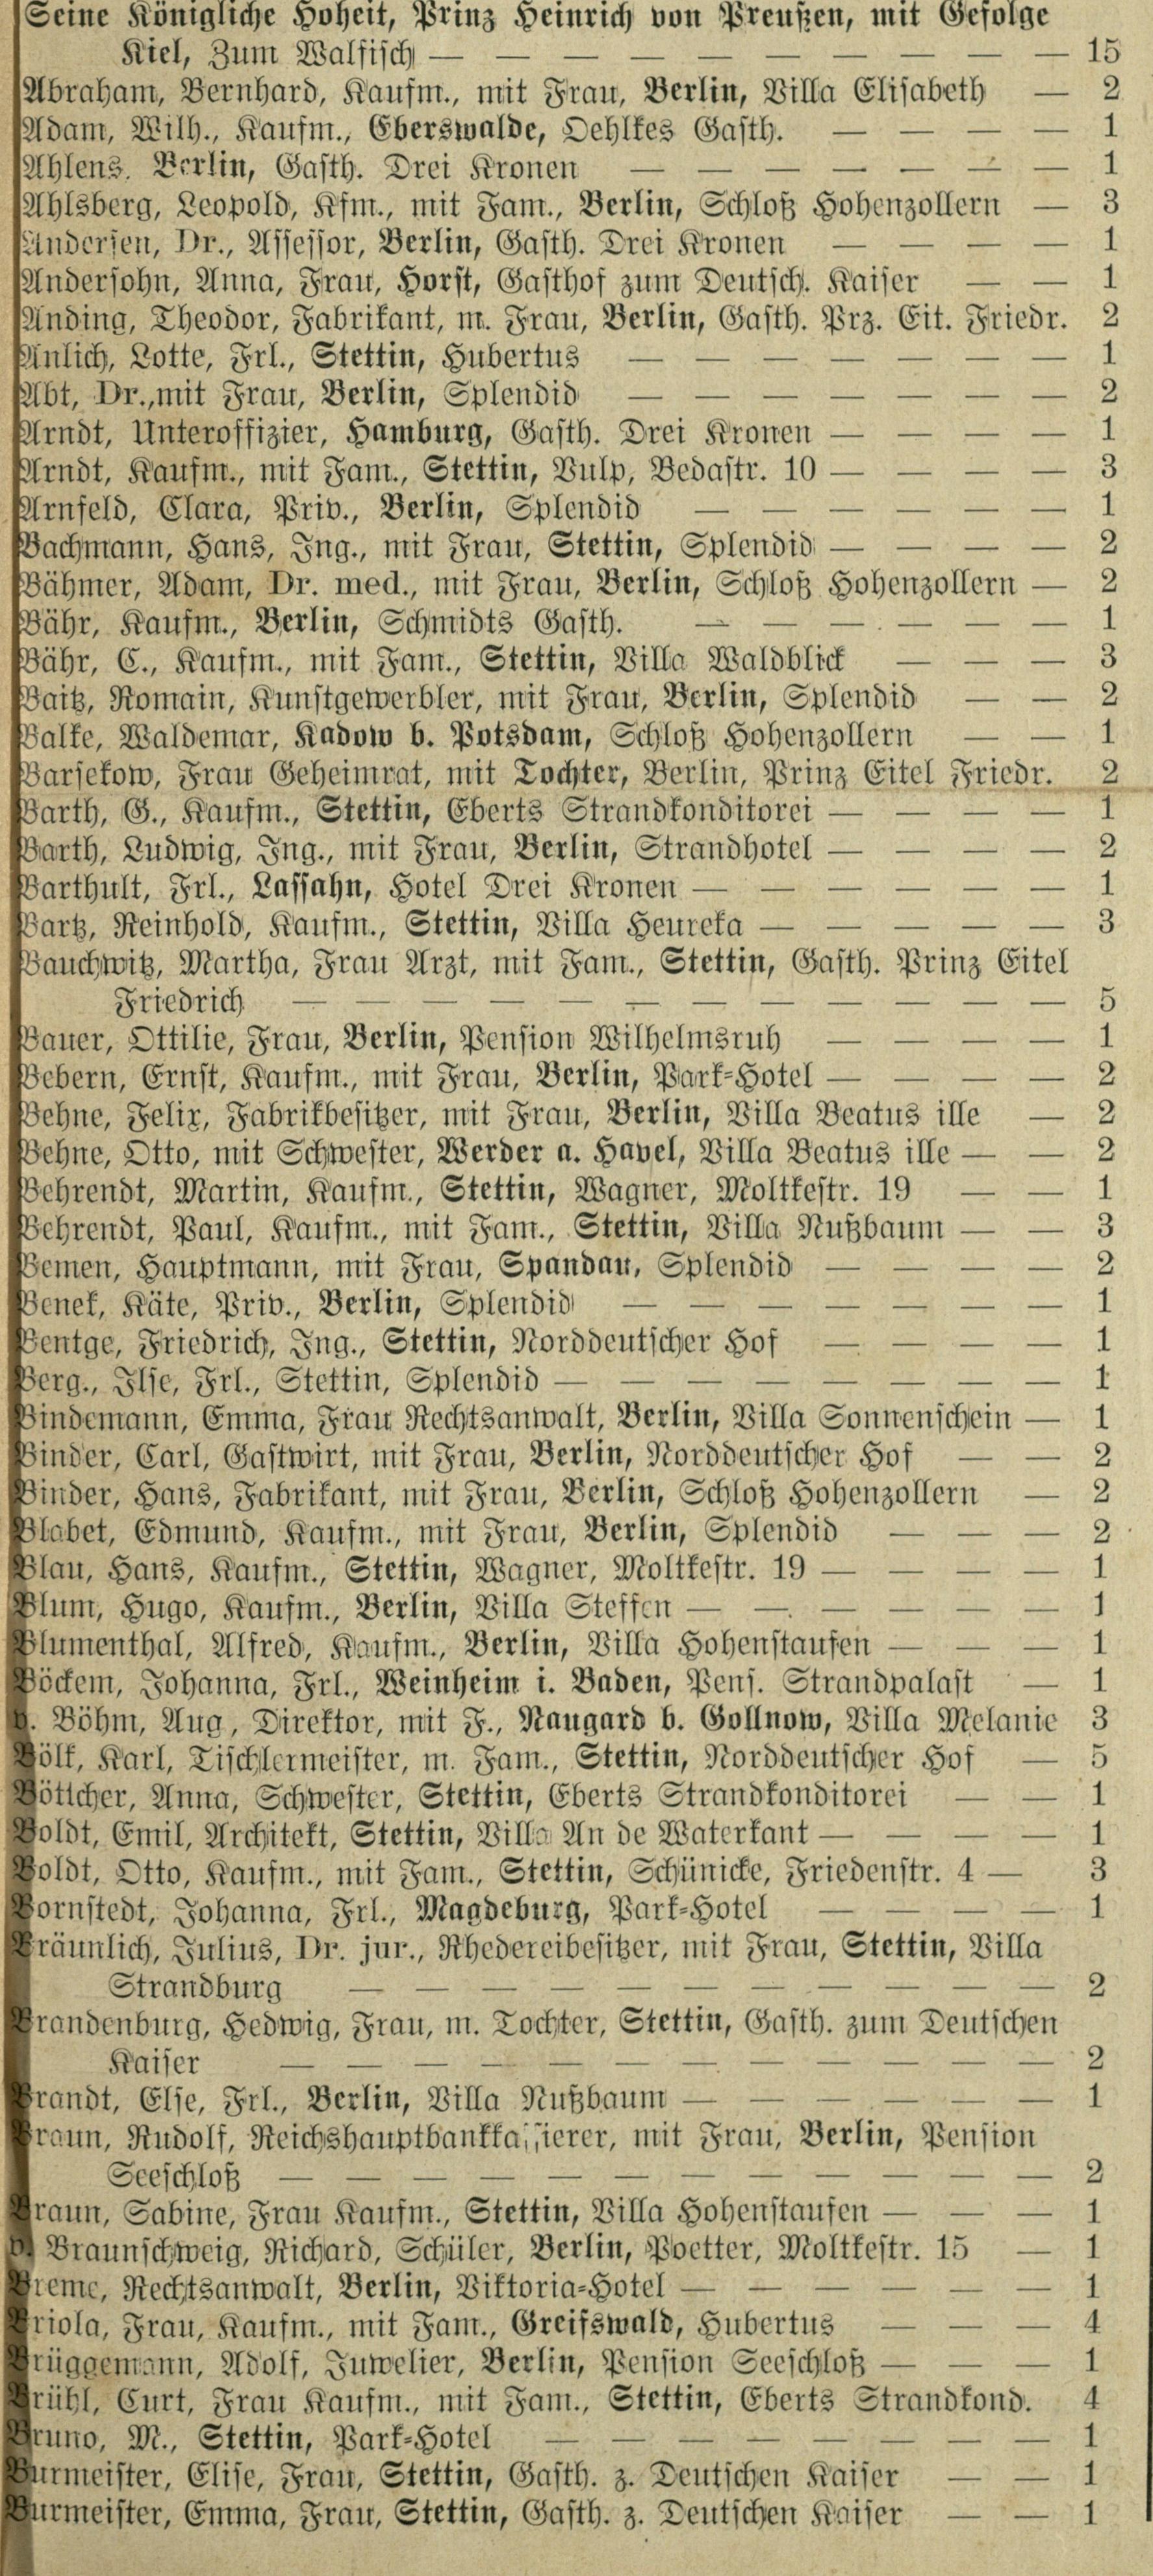Seine Königliche Hoheit, Prinz Heinrich von Preußen, mit Gefolge
Kiel, Zum Walfisch | 15
Abraham Bernhard, Kaufm., mit Frau, Berlin, Villa Elisabeth | 2
Adam, Wilh., Kaufm., Eberswalde, Oehlkes Gasth. | 1
Ahlens, Berlin, Gasth. Drei Kronen | 1
Ahlsberg, Leopold, Kfm., mit Fam., Berlin, Schloß Hohenzollern | 3
Andersen, Dr., Assessor, Berlin, Gasth. Drei Kronen | 1
Andersohn, Anna, Frau, Horst, Gasthof zum Deutsch. Kaiser | 1
Anding, Theodor, Fabrikant, m. Frau, Berlin, Gasth. Prz. Eit. Friedr. | 2
Anlich, Lotte, Frl., Stettin, Hubertus | 1
Abt, Dr.,mit Frau, Berlin, Splendid | 2
Arndt, Unteroffizier, Hamburg, Gasth. Drei Kronen | 1
Arndt, Kaufm., mit Fam., Stettin, Vulp, Bedastr. 10 | 3
Arnfeld, Clara, Priv., Berlin, Splendid | 1
Bachmann, Hans, Ing., mit Frau, Stettin, Splendid | 2
Bähmer, Adam, Dr. med., mit Frau, Berlin, Schloß Hohenzollern | 2
Bähr, Kaufm., Berlin, Schmidts Gasth. | 1
Bähr, C., Kaufm., mit Fam., Stettin, Villa Waldblick | 3
Baitz, Romain, Kunstgewerbler, mit Frau, Berlin, Splendid | 2
Balke, Waldermar, Kadow b. Potsdam, Schloß Hohenzollern | 1
Barsekow, Frau Geheimrat, mit Tochter, Berlin, Prinz Eitel Friedr. | 2
Barth, G., Kaufm., Stettin, Eberts Strandkonditorei | 1
Barth, Ludwig, Ing., mit Frau, Berlin, Strandhotel | 2
Barthult, Frl., Lassahn, Hotel Drei Kronen | 1
Bartz, Reinhold, Kaufm., Stettin, Villa Heureka | 3
Bauchwitz, Martha, Frau Arzt, mit Fam., Stettin, Gasth. Prinz Eitel
Friedrich | 5
Bauer, Ottilie, Frau, Berlin, Pension Wilhelmsruh | 1
Bebern, Ernst, Kaufm., mit Frau, Berlin, Park=Hotel | 2
Behne, Felix, Fabrikbesitzer, mit Frau, Berlin, Villa Beatus ille | 2
Behne, Otto, mit Schwester, Werder a. Havel, Villa Beatus ille | 2
Behrendt, Martin, Kaufm., Stettin, Wagner, Molkestr. 19 | 1
Behrendt, Paul, Kaufm., mit Fam., Stettin, Villa Nußbaum | 3
Bemen, Hauptmann, mit Frau, Spandau, Splendid | 2
Benek, Käte, Priv., Berlin, Splendid | 1
Bentge, Friedrich, Ing., Stettin, Norddeutscher Hof | 1
Berg., Ilse, Frl., Stettin, Splendid | 1
Bindemann, Emma, Frau Rechtsanwalt, Berlin, Villa Sonnenschein | 1
Binder, Carl, Gastwirt, mit Frau, Berlin, Norddeutscher Hof | 2
Binder, Hans, Fabrikant, mit Frau, Berlin, Schloß Hohenzollern | 2
Bladet, Edmund, Kaufm., mit Frau, Berlin, Splendid | 2
Blau, Hans, Kaufm., Stettin, Wagner, Moltkestr. 19 | 1
Blum, Hugo, Kaufm., Berlin, Villa Steffen | 1
Blumenthal, Alfred, Kaufm., Berlin, Villa Hohenstaufen | 1
Böckem, Johanna, Frl., Weinheim i. Baden, Pens. Strandpalast | 1
v. Böhm, Aug , Direktor, mit F., Naugard b. Gollnow, Villa Melanie | 3
Bölk, Karl, Tischlermeister, m. Fam., Stettin, Norddeutscher Hof | 5
Böttcher, Anna, Schwester, Stettin, Eberts Strandkonditorei | 1
Boldt, Emil, Architekt, Stettin, Villa An de Waterkant | 1
Boldt, Otto, Kaufm., mit Fam., Stettin, Schünicke, Fridenstr. 4 | 3
Bornstedt, Johanna, Frl., Magdeburg, Park=Hotel | 1
Bräunlich, Julius, Dr. jur., Rhedereibesitzer, mit Frau, Stettin, Villa
Strandburg | 2
Brandenburg, Hedwig, Frau, m. Tochter, Stettin, Gasth. zum Deutschen
Kaiser | 2
Brandt, Else, Frl., Berlin, Villa Nußbaum | 1
Braun, Rudolf, Reichshauptbankkassierer, mit Frau, Berlin, Pension
Seeschloß | 2
Braun, Sabine, Frau Kaufm., Stettin, Villa Hohenstaufen | 1
v. Braunschweig, Richard, Schüler, Berlin, Poetter, Moltkestr. 15 | 1
Breme, Rechtsanwalt, Berlin, Viktoria=Hotel | 1
Briola, Frau, Kaufm., mit Fam., Greifswald, Hubertus | 4
Brüggemann, Adolf, Juwelier, Berlin, Pension Seeschloß | 1
Brühl, Curt, Frau Kaufm., mit Fam., Stettin, Eberts Strandkond. | 4
Bruno, M., Stettin, Park=Hotel | 1
Burmeister, Elise, Frau, Stettin, Gasth. z. Deutschen Kaiser | 1
Burmeister, Emma, Frau, Stettin, Gasth. z. Deutschen Kaiser | 1
